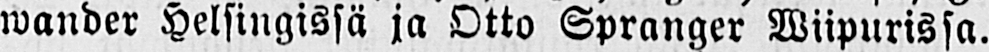wander Helsingissä ja Otto Spranger Wiipurissa.
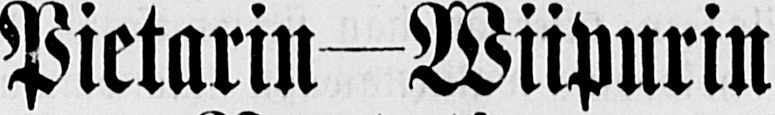Pietarin—Wiipurin
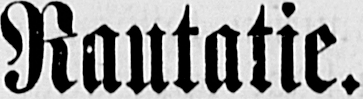Rautatie.
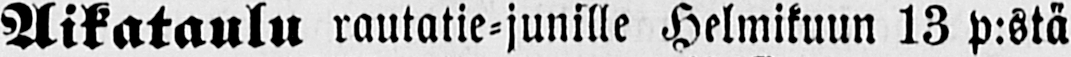Aikataulu rautatie-junille Helmikuun 13 p:stä
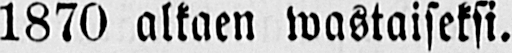1870 alkaen wastaiseksi.
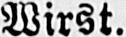Wirst.
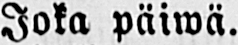Joka päiwäi.
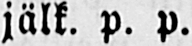jälk. p. p.
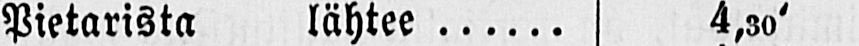Pietarista lähtee 4,30’
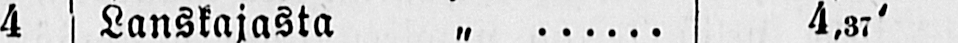4 Lanskajasta „ 4,37’
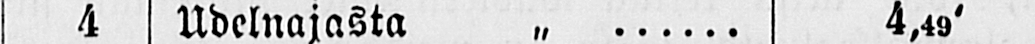4 Udelnajasta „ 4,49’
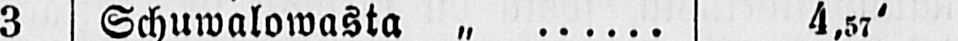3 Schuwalowasta „ 4,57’
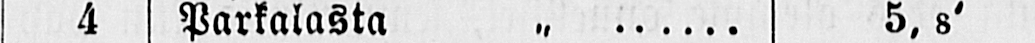4 Parkalasta „ 5,8’
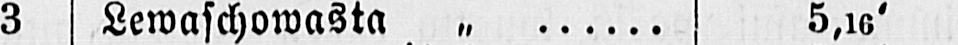3 Lewaschowasta „ 5,16’
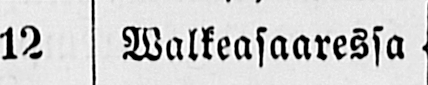12 Walkeasaaressa
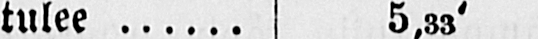tulee 5,33’
